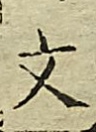文
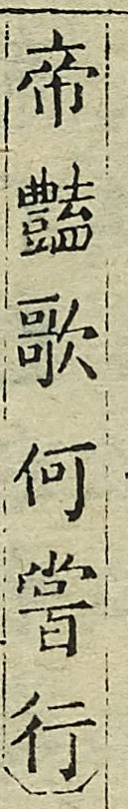帝豔歌何嘗行）
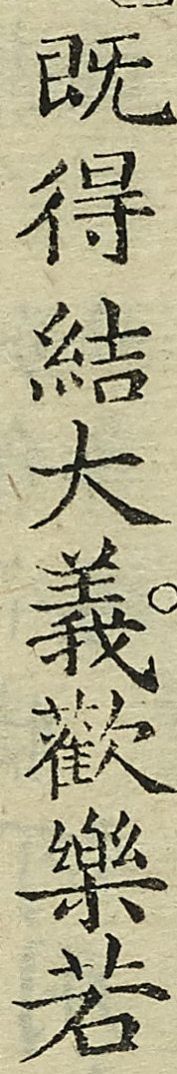既得結大義歡樂若
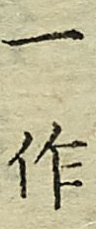一作
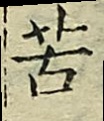苦
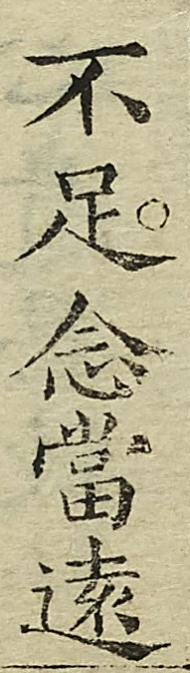不足念當遠
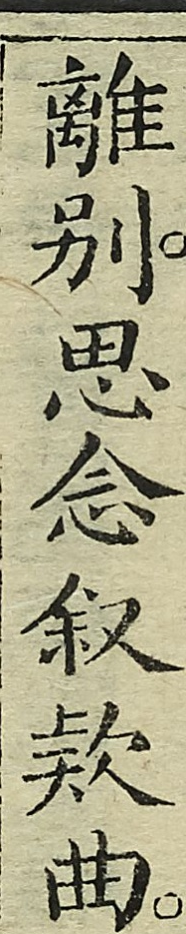離別思念敘欵曲
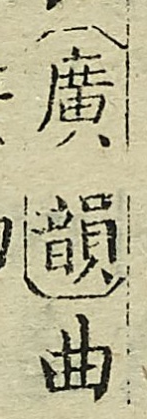（廣韻）曲
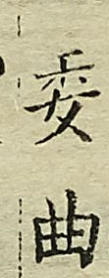委曲
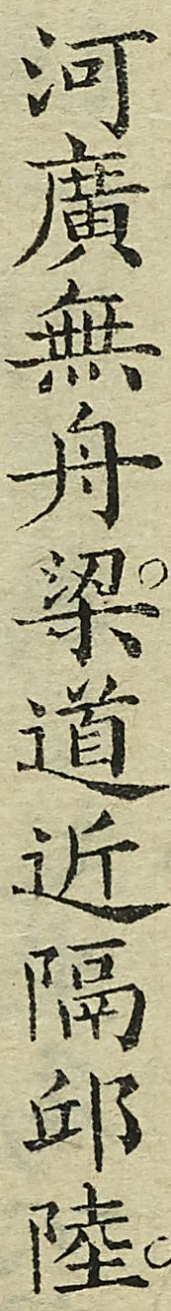河廣無舟梁道近隔邱陸
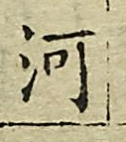河
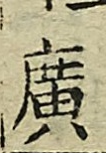廣
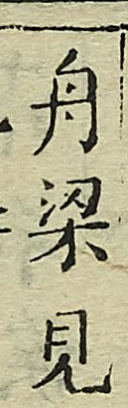舟梁見
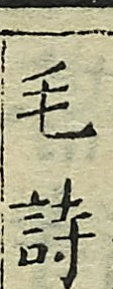毛詩
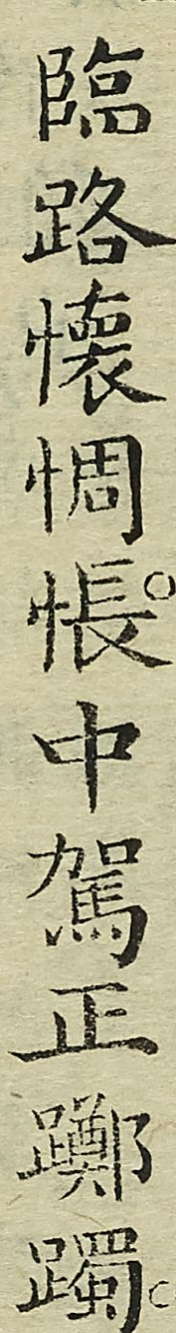臨路懷惆悵中駕正躑躅
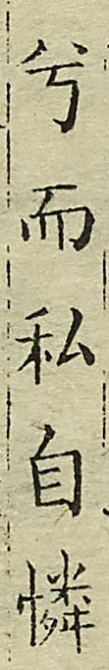兮而私自憐
